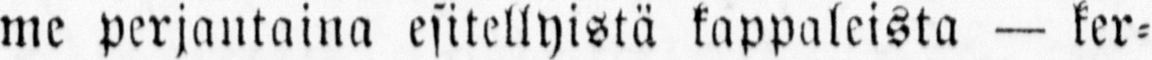me perjantaina esitellyistä kappaleista — ker-
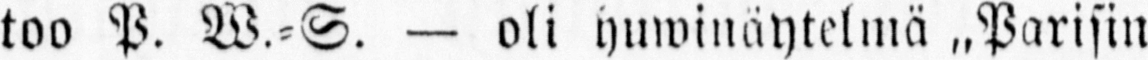too P. W.-S. — oli huwinäytelmä ˶Parisin
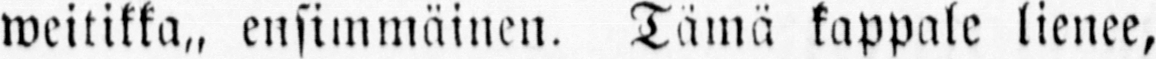weitikka˶ ensimmäinen. Tämä kappale lienee,
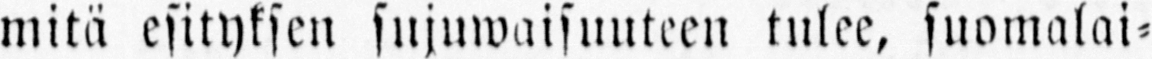mitä esityksen sujuwaisuuteen tulee, suomalai-
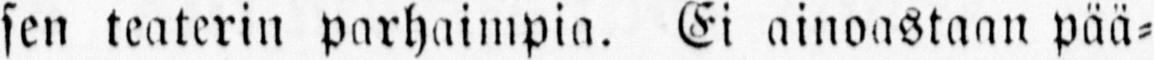sen teaterin parhaimpia. Ei ainoastaan pää-
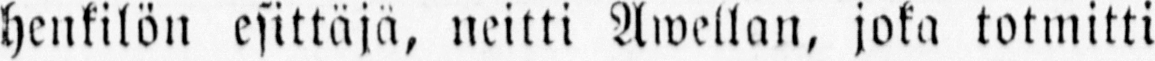henkilön esittäjä, neitti Awellan, joka totmitti
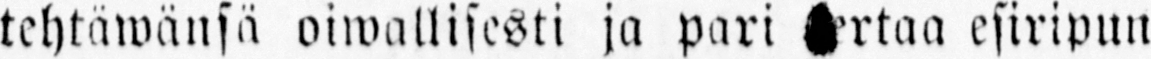tehtäwänsä oiwallisesti ja pari kertaa esiripun
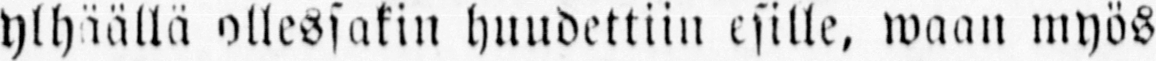ylhäällä ollessakin huudettiin esille, waan myös
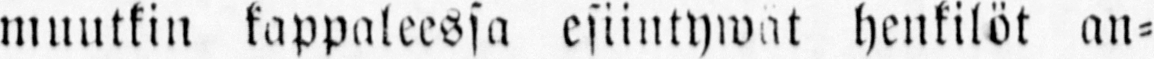muutkin kappaleessa esiintywät henkilöt an-
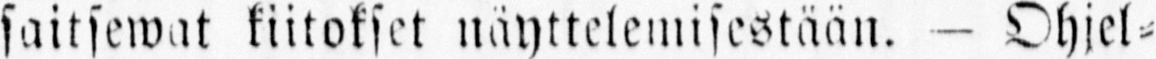saitsewat kiitokset näyttelemisestään. — Ohjel-
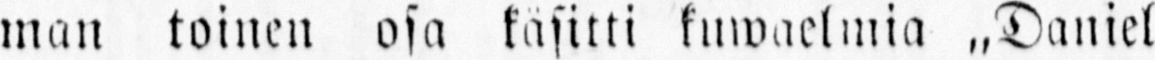man toinen osa käsitti kuwaelmia ˶Daniel
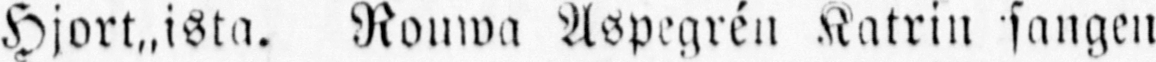Hjort„ista. Rouwa Aspegrén Katrin sangen
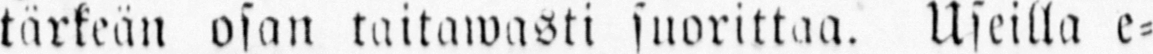tärkeän osan taitawasti suorittaa. Useilla e-
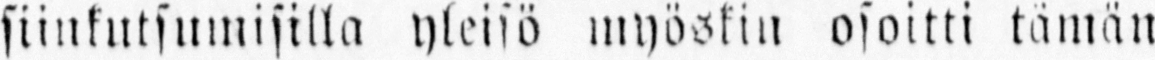siinkutsumisilla yleisö myöskin osoitti tämän
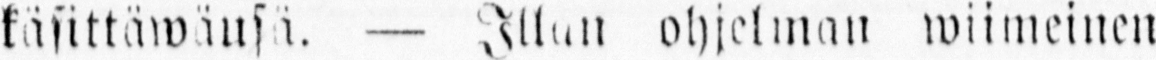käsittäwäusä. — Illan ohjelman wiimeinen
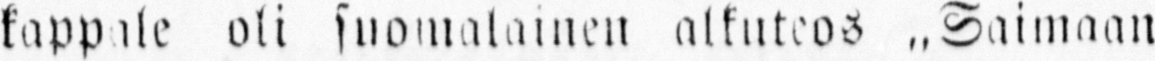kappale oli suomalainen alkuteos ˶Saimaan
